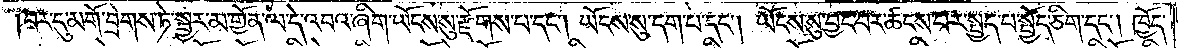བར་དུ་མགོ་བྲེགས་ཏེ་སྦྱར་མ་གྱོན་ལ་དེ་འབའ་ཞིག་ཡོངས་སུ་རྫོགས་པ་དང༌། ཡོངས་སུ་དག་པ་དང༌། ཡོངས་སུ་བྱང་བར་ཚངས་པར་སྤྱད་པ་སྤྱོད་ཅིག་དང༌། ཁྱོད་
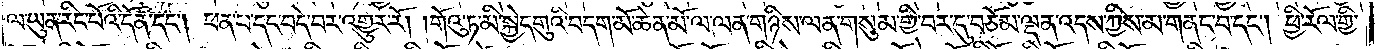ལ་ཡུན་རིང་པོའི་དོན་དང༌། ཕན་པ་དང་བདེ་བར་འགྱུར་རོ། །གོའུ་ཏ་མི་སྐྱེ་དགུའི་བདག་མོ་ཆེན་མོ་ལ་ལན་གཉིས་ལན་གསུམ་གྱི་བར་དུ་བཅོམ་ལྡན་འདས་ཀྱིས་མ་གནང་བ་དང༌། ཕྱི་རོལ་གྱི་
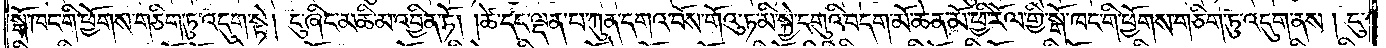སྒོ་ཁང་གི་ཕྱོགས་གཅིག་ཏུ་འདུག་སྟེ། ངུ་ཞིང་མཆི་མ་འབྱིན་ཏོ། །ཚེ་དང་ལྡན་པ་ཀུན་དགའ་བོས་གོའུ་ཏ་མི་སྐྱེ་དགུའི་བདག་མོ་ཆེན་མོ་ཕྱི་རོལ་གྱི་སྒོ་ཁང་གི་ཕྱོགས་གཅིག་ཏུ་འདུག་ནས། ངུ་
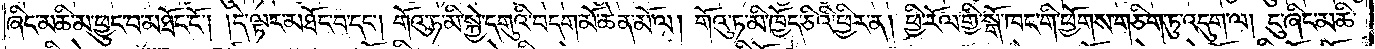ཞིང་མཆི་མ་ཕྱུང་བ་མཐོང་ངོ༌། །དེ་ལྟར་མཐོང་བ་དང༌། གོའུ་ཏ་མི་སྐྱེ་དགུའི་བདག་མོ་ཆེན་མོ་ལ། གོའུ་ཏ་མི་ཁྱོད་ཅིའི་ཕྱིར་ན། ཕྱི་རོལ་གྱི་སྒོ་ཁང་གི་ཕྱོགས་གཅིག་ཏུ་འདུག་ལ། ངུ་ཞིང་མཆི་
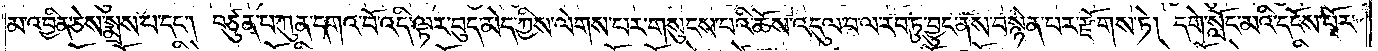མ་འབྱིན་ཅེས་སྨྲས་པ་དང༌། བཙུན་པ་ཀུན་དགའ་བོ་འདི་ལྟར་བུད་མེད་ཀྱིས་ལེགས་པར་གསུངས་པའི་ཆོས་འདུལ་བ་ལ་རབ་ཏུ་བྱུང་ནས་བསྙེན་པར་རྫོགས་ཏེ། དགེ་སློང་མའི་དངོས་པོར་
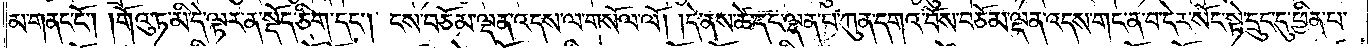མ་གནང་ངོ༌། །གོའུ་ཏ་མི་དེ་ལྟར་ན་སྡོད་ཅིག་དང༌། ངས་བཅོམ་ལྡན་འདས་ལ་གསོལ་ལོ། །དེ་ནས་ཚེ་དང་ལྡན་པ་ཀུན་དགའ་བོས་བཅོམ་ལྡན་འདས་གང་ན་བ་དེར་སོང་སྟེ་དྲུང་དུ་ཕྱིན་པ་
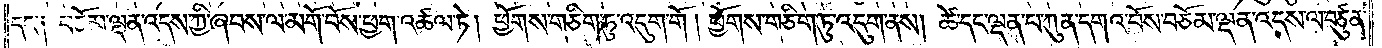དང་༑ བཅོམ་ལྡན་འདས་ཀྱི་ཞབས་ལ་མགོ་བོས་ཕྱག་འཚལ་ཏེ། ཕྱོགས་གཅིག་ཏུ་འདུག་གོ །ཕྱོགས་གཅིག་ཏུ་འདུག་ནས། ཚེ་དང་ལྡན་པ་ཀུན་དགའ་བོས་བཅོམ་ལྡན་འདས་ལ་བཙུན་
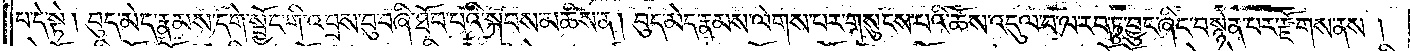པ་དེ་སྟེ། བུད་མེད་རྣམས་དགེ་སྦྱོང་གི་འབྲས་བུ་བཞི་ཐོབ་པའི་སྐབས་མཆིས་ན། བུད་མེད་རྣམས་ལེགས་པར་གསུངས་པའི་ཆོས་འདུལ་བ་ལ་རབ་ཏུ་བྱུང་ཞིང་བསྙེན་པར་རྫོགས་ནས།
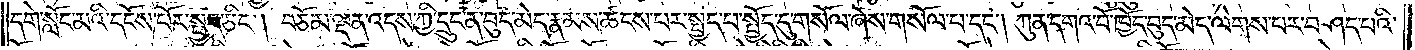དགེ་སློང་མའི་དངོས་པོར་སྤྱད་ཅིང༌། བཅོམ་ལྡན་འདས་ཀྱི་དྲུང་ན་བུད་མེད་རྣམས་ཚངས་པར་སྤྱད་པ་སྤྱོད་དུ་གསོལ་ཞེས་གསོལ་པ་དང༌། ཀུན་དགའ་བོ་ཁྱོད་བུད་མེད་ལེགས་པར་བཤད་པའི་
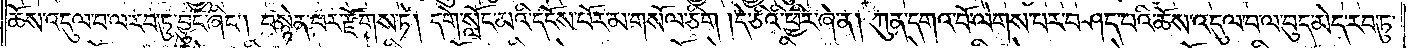ཆོས་འདུལ་བ་ལ་རབ་ཏུ་བྱུང་ཞིང༌། བསྙེན་པར་རྫོགས་ཏེ། དགེ་སློང་མའི་དངོས་པོར་མ་གསོལ་ཅིག །དེ་ཅིའི་ཕྱིར་ཞེ་ན། ཀུན་དགའ་བོ་ལེགས་པར་བཤད་པའི་ཆོས་འདུལ་བ་ལ་བུད་མེད་རབ་ཏུ་
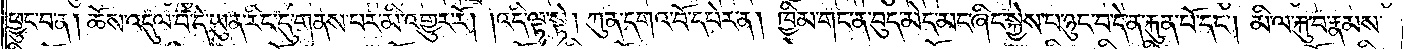ཕྱུང་བ་ན། ཆོས་འདུལ་བ་དེ་ཡུན་རིང་དུ་གནས་པར་མི་འགྱུར་རོ། །འདི་ལྟ་སྟེ། ཀུན་དགའ་བོ་དཔེར་ན། ཁྱིམ་གང་ན་བུད་མེད་མང་ཞིང་སྐྱེས་པ་ཉུང་བ་དེ་ན་རྐུན་པོ་དང༌། མི་ལ་རྐུ་བ་རྣམས་
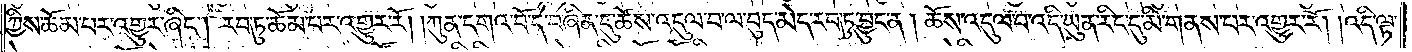ཀྱིས་ཆོམ་པར་འགྱུར་ཞིང༌། རབ་ཏུ་ཆོམ་པར་འགྱུར་རོ། །ཀུན་དགའ་བོ་དེ་བཞིན་དུ་ཆོས་འདུལ་བ་ལ་བུད་མེད་རབ་ཏུ་བྱུང་ན། ཆོས་འདུལ་བ་འདི་ཡུན་རིང་དུ་མི་གནས་པར་འགྱུར་རོ། །འདི་ལྟ་
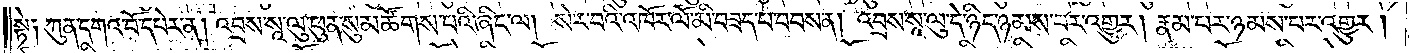སྟེ༑ ཀུན་དགའ་བོ་དཔེར་ན། འབྲས་སཱ་ལུ་ཕུན་སུམ་ཚོགས་པའི་ཞིང་ལ། སེར་བའི་འཁོར་ལོ་མི་བཟད་པ་བབས་ན། འབྲས་སཱ་ལུ་དེ་ཉིད་ཉམས་པར་འགྱུར། རྣམ་པར་ཉམས་པར་འགྱུར།
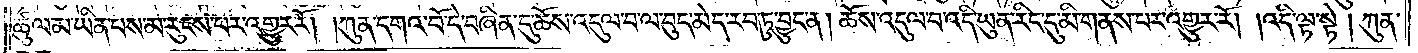ཚུལ་མ་ཡིན་པས་མ་རུངས་པར་འགྱུར་རོ། །ཀུན་དགའ་བོ་དེ་བཞིན་དུ་ཆོས་འདུལ་བ་ལ་བུད་མེད་རབ་ཏུ་བྱུང་ན། ཆོས་འདུལ་བ་འདི་ཡུན་རིང་དུ་མི་གནས་པར་འགྱུར་རོ། །འདི་ལྟ་སྟེ། ཀུན་
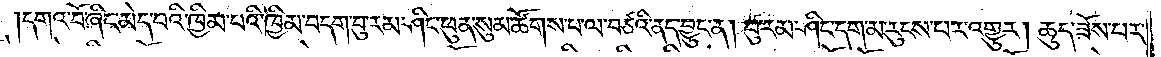དགའ་བོ་ཞིང་མེད་པའི་ཁྱིམ་པའི་ཁྱིམ་བདག་བུ་རམ་ཤིང་ཕུན་སུམ་ཚོགས་པ་ལ་བཙའི་ནད་བྱུང་ན། བུ་རམ་ཤིང་དག་མ་རུངས་པར་འགྱུར། ཆུད་ཟོས་པར་
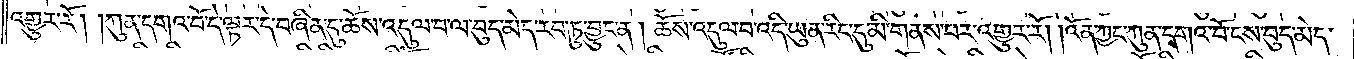འགྱུར་རོ། །ཀུན་དགའ་བོ་དེ་ལྟར་དེ་བཞིན་དུ་ཆོས་འདུལ་བ་ལ་བུད་མེད་རབ་ཏུ་བྱུང་ན། ཆོས་འདུལ་བ་འདི་ཡུན་རིང་དུ་མི་གནས་པར་འགྱུར་རོ། །འོན་ཀྱང་ཀུན་དགའ་བོ་ངས་བུད་མེད་
